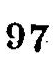97
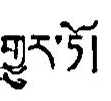གྱུར་ཏོ།
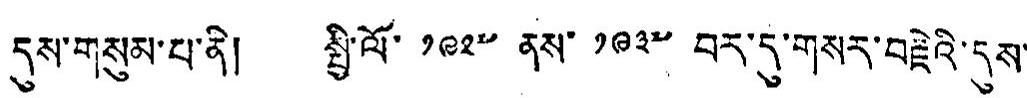དུས་གསུམ་པ་ནི། སྤྱི་ལོ་ ༡༩༢༧ ནས་ ༡༩༣༧ བར་དུ་གསར་བརྗེའི་དུས་
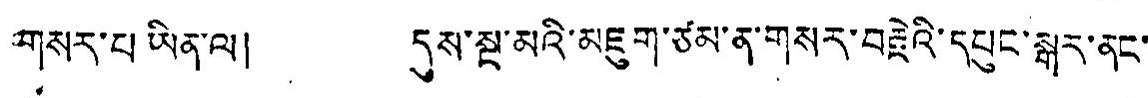གསར་པ་ཡིན་ལ། དུས་སྔ་མའི་མཇུག་ཙམ་ན་གསར་བརྗེའི་དཔུང་སྒར་ནང་
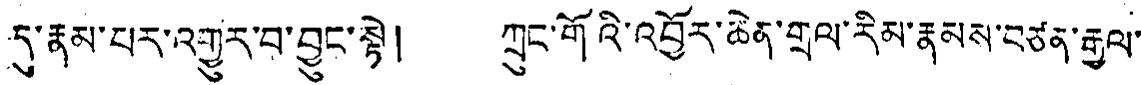དུ་རྣམ་པར་འགྱུར་བ་བྱུང་སྟེ། ཀྲུང་གོའི་འབྱོར་ཆེན་གྲལ་རིམ་རྣམས་བཙན་རྒྱལ་
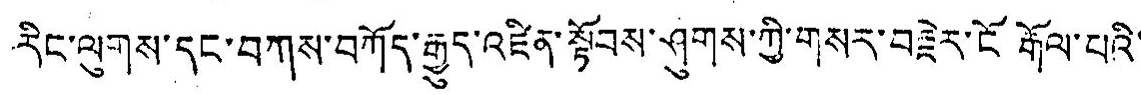རིང་ལུགས་དང་བཀས་བཀོད་རྒྱུད་འཛིན་སྟོབས་ཤུགས་ཀྱི་གསར་བརྗེར་ངོ་རྒོལ་པའི་
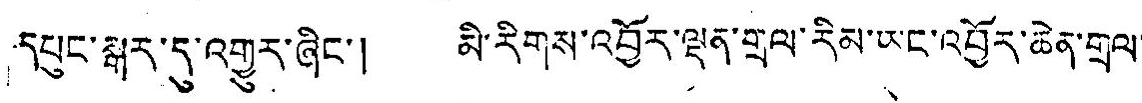དཔུང་སྒར་དུ་འགྱུར་ཞིང་། མི་རིགས་འབྱོར་ལྡན་གྲལ་རིམ་ཡང་འབྱོར་ཆེན་གྲལ་
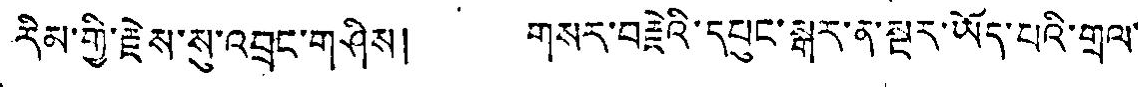རིམ་གྱི་རྗེས་སུ་འབྲུང་གཤིས། གསར་བརྗེའི་དཔུང་སྒར་ན་སྔར་ཡོད་པའི་གྲལ་
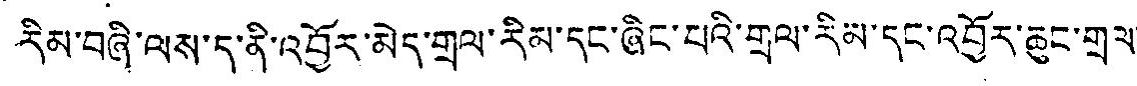རིམ་བཞི་ལས་དུ་ནི་འབྱོར་མེད་གྲལ་རིམ་དང་ཞིང་པའི་གྲལ་རིམ་དང་འབྱོར་ཆུང་གྲལ་
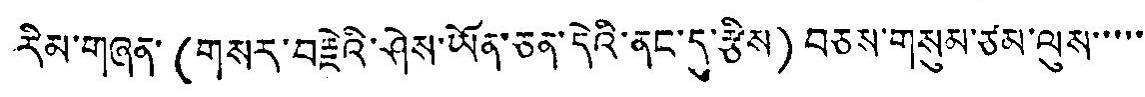རིམ་གཞན་(གསར་བརྗེའི་ཤེས་ཡོན་ཅན་དེའི་ནང་དུ་རྩིས) བཅས་གསུམ་ཙམ་ལུས་་་་་་
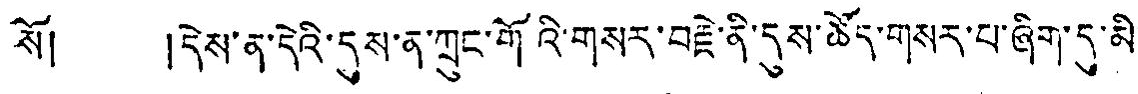སོ། །དེས་ན་དེའི་དུས་ན་ཀྲུང་གོའི་གསར་བརྗེ་ནི་དུས་ཚོད་གསར་པ་ཞིག་དུ་མི་
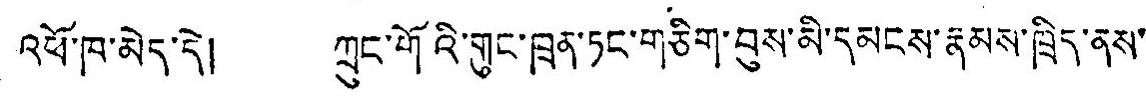འཕོ་ཁ་མེད་དེ། ཀྲུང་གོའི་གུང་ཁྲན་ཏང་གཅིག་བུས་མི་དམངས་རྣམས་ཁྲིད་ནས་
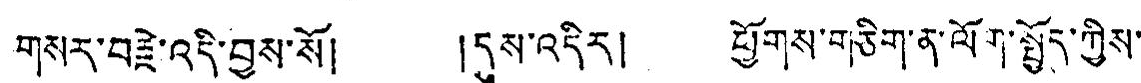གསར་བརྗེ་འདི་བྱས་སོ། །དུས་འདིར། ཕྱོགས་གཅིག་ན་ལོག་སྤྱོད་ཀྱིས་
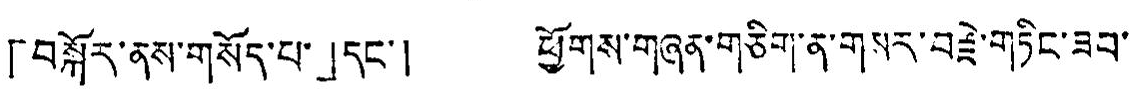「བསྐོར་ནས་གསོད་པ་」དང་། ཕྱོགས་གཞན་གཅིག་ན་གསར་བརྗེ་གཏིང་ཟབ་
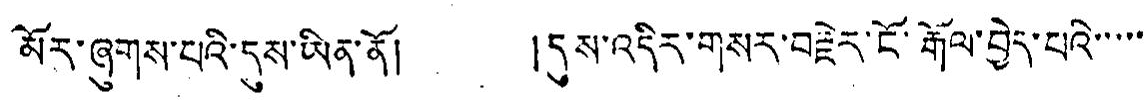མོར་ཞུགས་པའི་དུས་ཡིན་ནོ། །དུས་འདིར་གསར་བརྗེད་ངོ་རྒོལ་བྱེད་པའི་་་་་
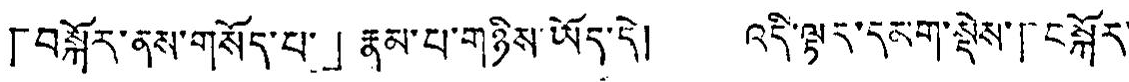「བསྐོར་ནས་གསོད་པ་」རྣམ་པ་གཉིས་ཡོད་དེ། འདི་ལྟར་དམག་སྡེས་「བསྐོར་
